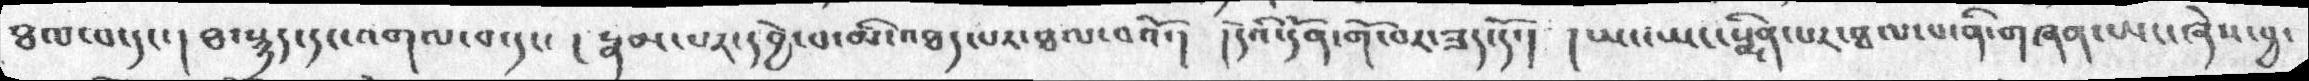ཐལ་པ་དང་།  ཐ་སྙད་དང་འགལ་བ་དང་ ། རྣམ་པར་དབྱེ་བ་མི་འཐད་པར་ཐལ་བའོ་། །དེའི་དོན་གོ་བར་ཟད་དོ་། ། ཡང་ཡང་སྨིན་པར་ཐལ་པ་ནི་གཞན་ཡང་ཞེས་བྱ་
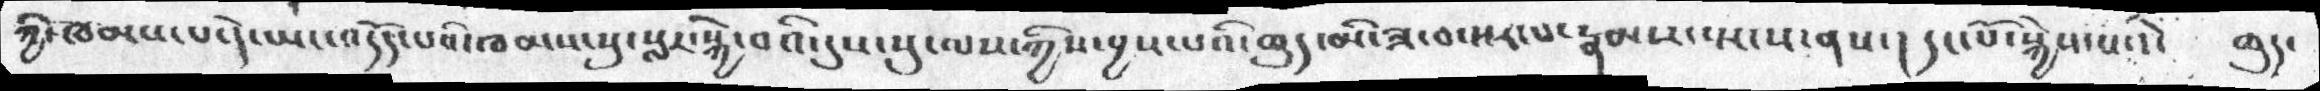ཀྱི་ཁམས་པ་དེ་ཡང་འདོད་པའི་ཁམས་སུ་སླར་སྐྱེ་བའི་དུས་སུ་ལས་ཀྱིས་བྱས་པའི་ཆུད་མི་ཟ་བ་སར་པ་རྣམས་སྤང་ནས་།   དང་པོ་སྐྱེས་པ་དེ་    ཆུད་
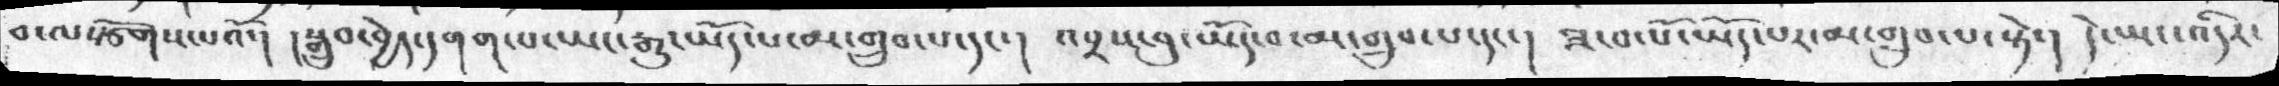བ་ལསྩོགས་པའི་།  །སྒྲུབ་བྱེད་དགག་པ་ཡང་རྒྱུ་ཡོད་པ་མ་གྲུབ་པ་དང་།   འབྲས་བུ་ཡོད་བ་མ་གྲུབ་པ་དང་། ཟ་བ་པོ་ཡོད་པར་མ་གྲུབ་པ་སྟེ་།  དེ་ཡང་འདིར་
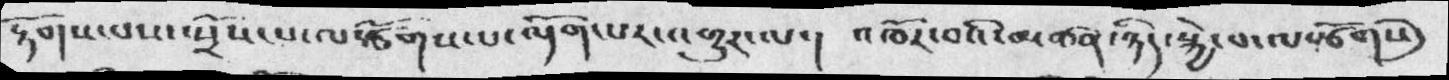རྟོགས་པས་སྲོས་པ་ལརྩོགས་པ་ལྡོག་པར་འགྱུར་ལ་།  འཁོར་བའི་མཚན་ཉིད་སྐྱེ་པ་ལསྩོགསོ
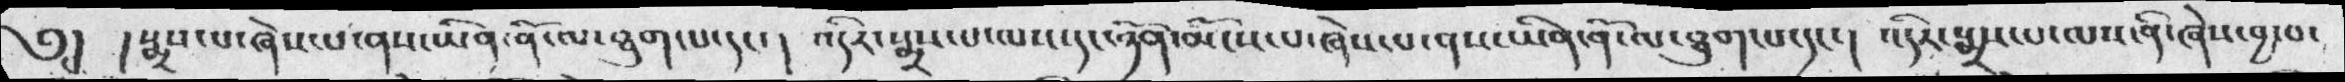༄།  །སྨྲས་པ་ཞེས་པ་ནས་ཡིན་ནོ་ལ་ཐུག་པ་དང་།  འདིར་སྨྲས་པ་ལས་དང་ཉོན་མོངས་པ་ཞེས་པ་ནས་ཡིན་ནོ་ལ་ཐུག་པ་དང་།  འདིར་སྨྲས་པ་ལས་ནི་ཞེས་བྱ་བ་
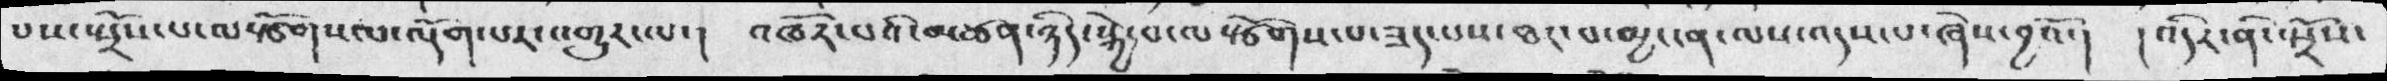པས་སྤྲོས་པ་ལསྩོགས་པ་ལྡོག་པར་འགྱུར་ལ་།  འཁོར་པའི་མཚན་ཉིད་སྐྱེ་བ་ལསྩོགས་པ་ཟད་པས་ཐར་པ་མྱ་ངན་ལས་འདས་པ་ཞེས་བྱའོ་།  །འདིར་ནི་སྤྲོས་
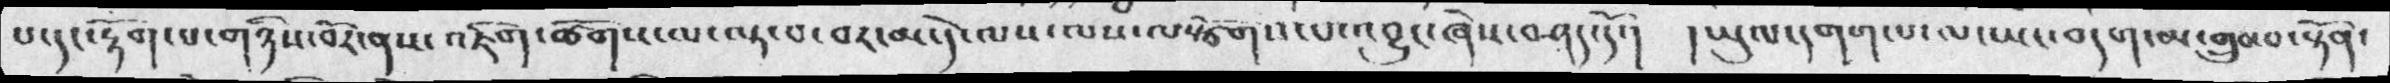པ་དང་རྟོག་པ་གཉིས་བོར་ནས་འཇིག་ཚོགས་ལ་ལྟ་བ་བར་མ་དེ་ལས་ལས་སྩོགས་པ་འབྱུང་ཞེས་བཤད་དོ་།  །ཡུལ་དགག་པ་ལ་ཡང་བདག་མ་གྲུབ་པ་སྟོན་
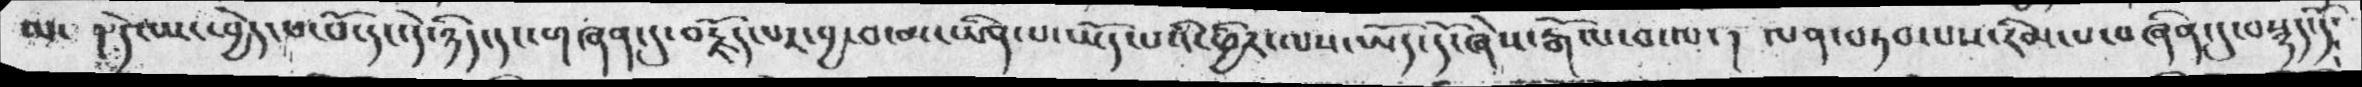མ་    ། དེ་ཡང་བྱེད་པ་པོ་དང་དེ་ཉིད་དང་གཞན་དུ་བརྗོད་པར་བྱ་བ་མ་ཡིན་པ་ཡོད་པའི་ཕྱིར་ལས་ཡོད་དོ་ཞེས་རྒོལ་བ་ལ་།   ལན་བཏབ་པས་རིམ་པ་བཞིན་དུ་བསྙད་དོ༴
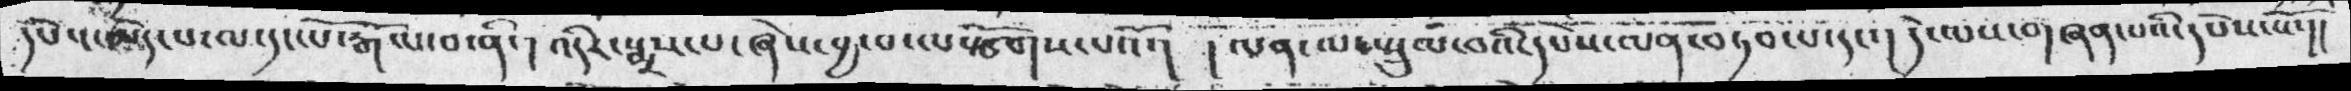དཔེ་དང་མེད་པ་ལ་དང་པོ་རྒོལ་བ་ནི་།  འདིར་སྨྲས་པ་ཞེས་བྱ་བ་ལསྩོགས་པའོ་། ། ལན་ལ་སྤྲུལ་བའི་དཔེས་ལན་བཏབ་པ་དང་།  དེ་ལས་གཞན་པའི་དཔེས་སོ་།།
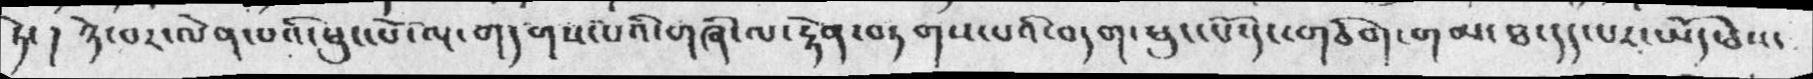ཏེ་ ། ཉེ་བར་ལེན་པའི་ཕུང་པོ་ལྔ་གདགས་པའི་གཞི་ལ་རྟེན་བཏགས་པའི་བདག་ཕུང་པོ་དང་གཅིག་གམ་ཐ་དད་པར་ཡོད་ཅེས་
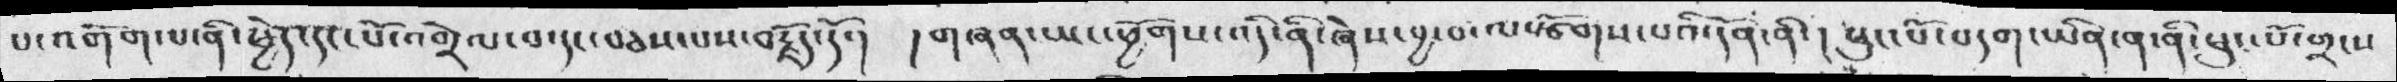པ་འགོག་པ་ནི་ཕྱེད་དང་པོ་འགྲེལ་བ་དང་བཅས་པས་བརྗོད་དོ་།  ། གཞན་ཡང་ཕྱོགས་འདི་ནི་ཞེས་བྱ་བ་ལསྩོགས་པའི་དོན་ནི་།  ཕུང་པོ་བདག་ཡིན་ན་ནི་ཕུང་པོ་གྲངས
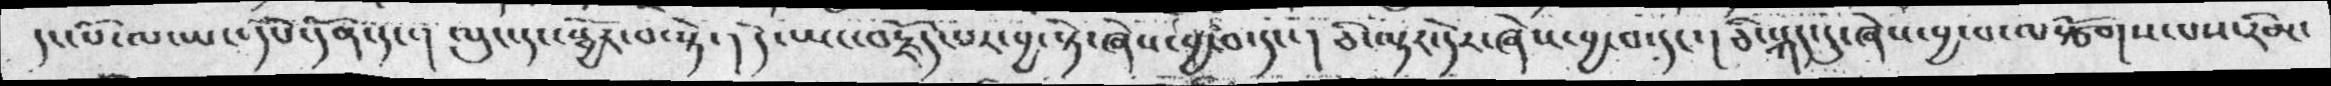དང་པོ་ལ་ཡང་དཔེ་དོན་དང་།  ལུང་དང་སྦྱོར་བ་སྟེ་། དེ་ཡང་བརྗོད་པར་བྱ་སྟེ་ཞེས་བྱ་བ་དང་།  ཅི་ལྟར་དེར་ཞེས་བྱ་བ་དང་། ཅི་སྐད་དུ་ཞེས་བྱ་བ་ལསྩོགས་པས་རིམ་
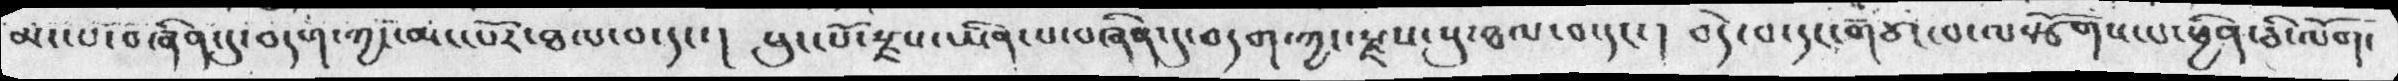མང་པོ་བཞིན་དུ་བདག་ཀྱང་མང་པོར་ཐལ་བ་དང་།  ཕུང་པོ་སྫས་ཡིན་པ་བཞིན་དུ་བདག་ཀྱང་རྫས་སུ་ཐལ་བ་དང་།  བདེ་བ་དང་གཙང་བ་ལསྩོགས་པ་ཕྱིན་ཅི་ལོག་
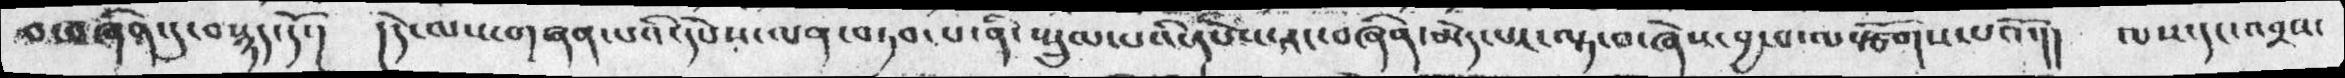བ་བཞིན་དུ་བསྙད་དོ་།  །དེ་ལས་གཞན་པའི་དཔེས་ལན་བཏབ་པ་ནི་སྤྲུལ་པའི་དཔེས་རང་བཞིན་མེད་པར་ལྟ་བ་ཞེས་བྱ་བ་ལརྩོགས་པའོ་།།  ལས་དང་འབྲས་
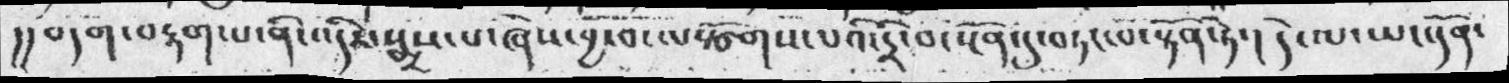།།བདག་བརྟག་པ་ནི་འདིར་སྨྲས་པ་ཞེས་བྱ་བ་ལསྩོགས་པའི་དྲི་བ་སྔོན་དུ་བཏང་པ་སྟོན་ཏེ་།  དེ་ལ་ཡང་དོན
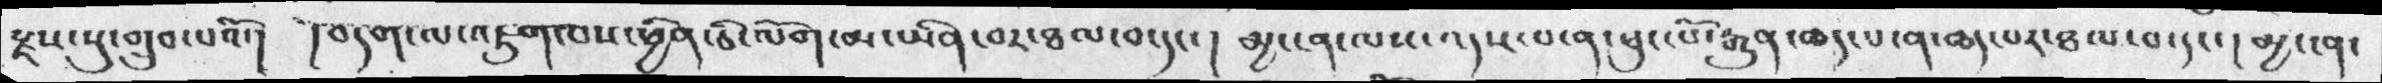རྫས་སུ་གྲུབ་པའོ་།  །བདག་ལ་འཇུག་པས་ཕྱིན་ཅི་ལོག་མ་ཡིན་པར་ཐལ་བ་དང་།  མྱ་ངན་ལས་འདས་པ་ན་ཕུང་པོ་རྒྱུན་ཆད་པ་ན་ཆད་པར་ཐལ་བ་དང་། མྱ་ངན་
